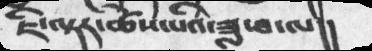ཇི་ལྟར་ཚེས་པའི་ཟླ་བ་ལ།།
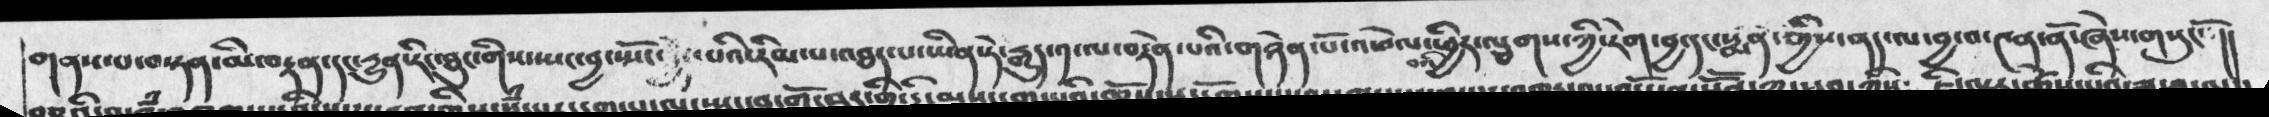གནས་པ་བསྟན་མི་བརྟན་དང་དྱུན་རིང་ཐུང་གིས་སྤང་བྱ་སྤོང་  པའི་རིམ་པ་འཐད་པ་ཡིན་ཏེ་རྒྱུད་༡་ལ་བརྟེན་པའི་གཉེན་པོ་འཕེལ་བའི་ཕྱིར་ལྕགས་ཀྱི་རེག་བྱ་དང་སྨན་གྱིས་ནད་ལ་བྱ་བ་༤ན་ནོ་ཞེས་གསུངསོ།།
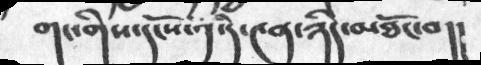གང་གིས་དངོས་༡་དེ་༤ན་ཉིད་མཐོང་བ།།
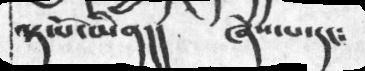ལྟ་པོ་མིན།།   ཞེས་པ་དང༴
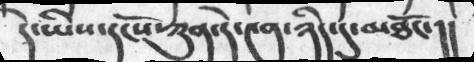དེ་ཡིས་དངོས་ཀུན་དེ་༤ན་ཉིད་དུ་མཐོང་།།
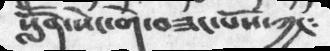སློོན་སེང་གེ་བཟང་པོས་ཀྱང༴
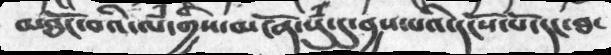མཐོང་བའི་ལཾ་གྱིས་མངོན་སུཾ་དུ་བྱས་པའི་དངོས་པོ་དང་ཐ་
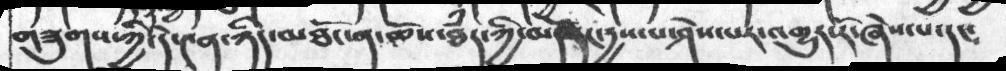གཟུགས་ཀྱི་དེ་༤ན་ཉིད་མཐོང་ན་ཆོས་ཐཾད་ཀྱི་མདོ་ནང་དྱས་པ་ཤེས་པར་འགྱུར་རོ་ཞེས་པ་དང༴
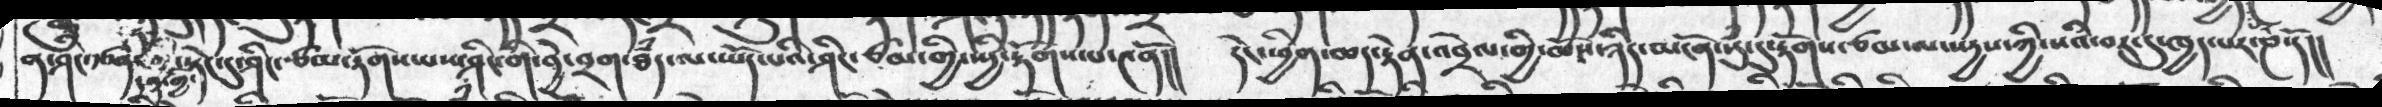ན་ཤིང་རྩན་དན་གྱི་སྟེང་དུ་ཤིང་ཙམ་རྟོགས་པས་ཤིང་གི་བྱེ་བྲག་ཐཾད་ལ་ཡོད་པའི་ཤིང་ཙམ་གྱི་སྤྱི་རྟོགས་པ་༤ནོ།།  དེང་ཕྱིན་ཆད་རྟེན་འབྲེལ་གྱི་ཆོས་ཉིད་མངོན་སུཾ་དུ་རྟོགས་ཙམ་ལ་སདྱས་ཀྱི་སའི་བར་དུ་ཁྱད་པར་ཎ་དོ།།
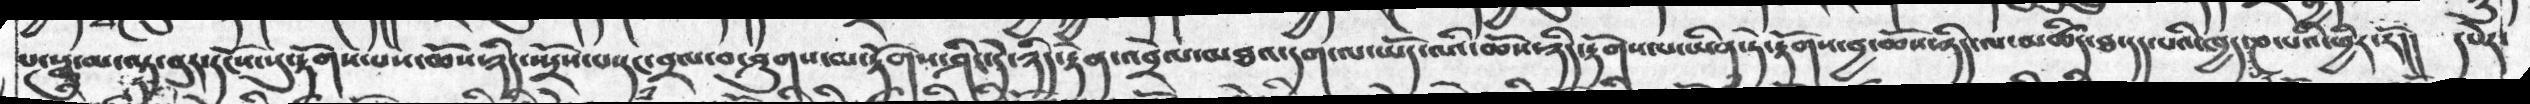པ་སྒྱུ་མ་ལྟ་བུར་དངོས་སུ་རྟོགས་པས་ཆོས་ཉིད་སྤྲོས་པ་དང་བྲལ་བ་ཤུགས་མ་རྟོགས་ཤིང་དེ་ཉིད་རྟེན་འབྲེལ་མཐའ་དག་ལ་ཡོད་པའི་ཆོསཉིད་རྟོགས་པ་ཡིན་ཏེ་རྟོགས་བྱ་ཆོས་ཉིད་ལ་མཚིད་ཐ་དད་པའི་ཁྱད་པ་ཎ་པའི་ཕྱིར་རོ།། དཔེར་
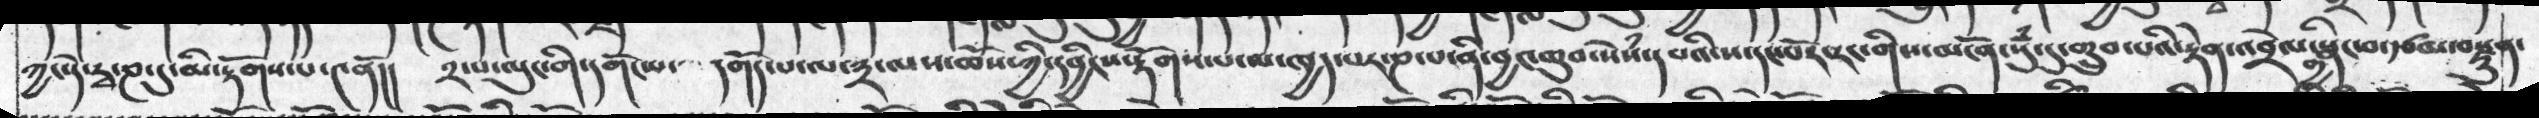ཀྱང་དེ་རྭ་ཎ་དུ་མི་རྟོགས་པ་༤ནོ།།  ༢་པ་ལུང་གི་དགོང་པ་  དགོད་པ་ལ་༣་ལས་ཆོས་ཀྱི་དབྱིངས་རྟོགས་པ་ལ་ཁྱད་པར་ཎ་པ་ནི་བྱང་ཆུབ་སེཾས་དཔའི་ས་དང་པོ་རང་གིས་མངོན་སུཾ་དུ་གྲུབ་པའི་རྟེན་འབྲེལ་གྱི་སྣང་བ་རྩམ་བརྫུན་
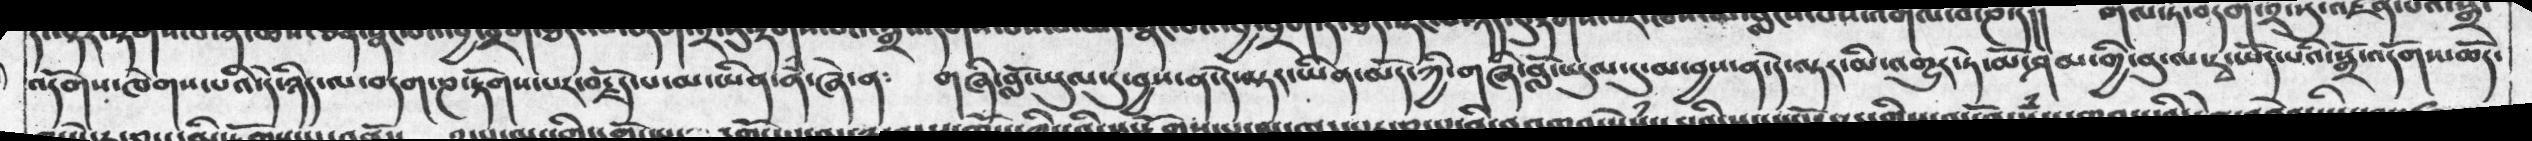འདོགས་ཁེགས་པའི་དེ་ཉིད་ལ་བདག་ཎ་རྟོགས་པར་བརྗོད་པ་མ་ཡིན་ནཾ་ཞེ་ན༴  གཞི་བློ་ཡུལ་དུ་བྱས་ན་དེ་ལྟར་ཡིན་མོད་གཞི་བློ་ཡུལ་དུ་མ་བྱས་ན་དེ་ལྟར་མི་འགྱུར་ཏེ་མོ་ཤམ་གྱི་བུ་ལ་རྭ་ཡོད་པའི་སྒྲོ་འདོགས་ཆོད་
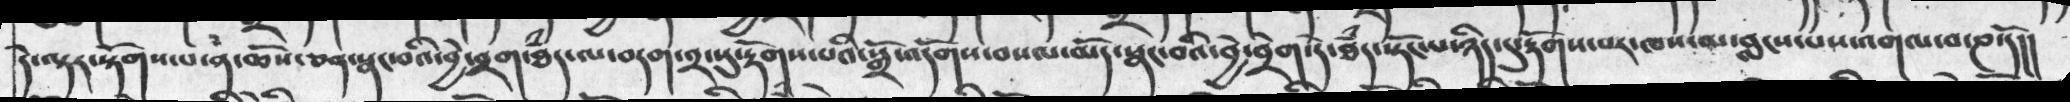དེ་ལྟར་སྟོགས་པ་ན་ཆོས་ཅན་སྣང་བའི་བྱེ་བྲག་ཐཾད་ལ་བདག་༢་སུ་རྟོགས་པའི་སྒྲོ་འདོགས་བསལ་མེད་སྣང་བའི་བྱེ་བྲག་དེ་ཐཾད་སྟོང་པ་ཉིད་དུ་རྟོགས་པར་ཁས་མ་བླངས་པས་འགལ་བ་ཎ་དོ།།
